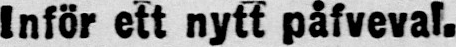Inför ett nytt påfveval.
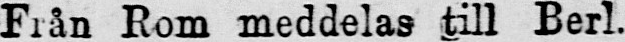Från Rom meddelas till Berl.
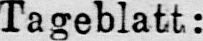Tageblatt:
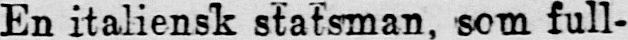En italiensk statsman, som full-
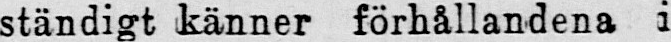ständigt känner förhållandena i
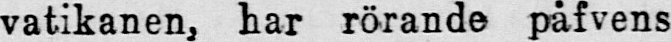vatikanen, har rörande påfvens
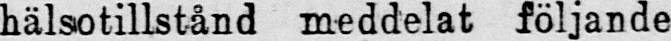hälsotillstånd meddelat följande
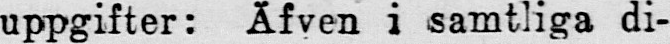uppgifter: Äfven i samtliga di-
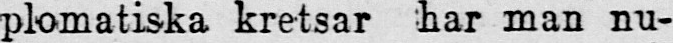plomatiska kretsar har man nu-
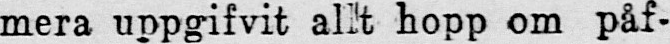mera unpgifvit allt hopp om påf-
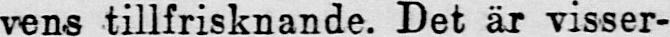vens tillfrisknande. Det är visser-
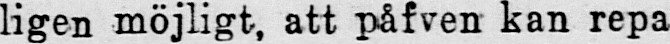ligen möjligt, att påfven kan repa
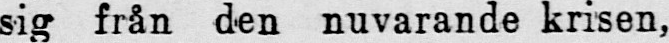sig från den nuvarande krisen,
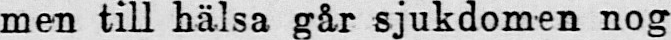men till hälsa går sjukdomen nog
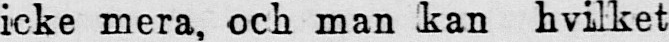icke mera, och man kan hvilket
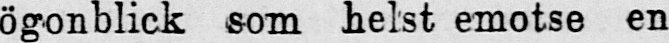ögonblick som helst emotse en
